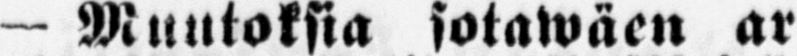— Muutoksia sotawäen ar-
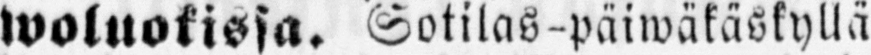woluokissa. Sotilas-päiwäkäskyllä
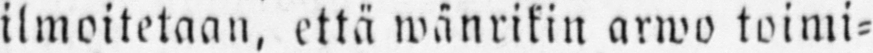ilmoitetaan, että wänrikin arwo toimi-
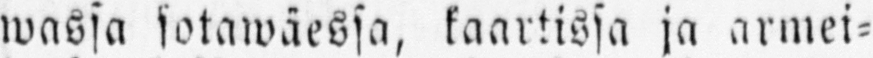wassa sotawäessa, kaartissa ja armei-
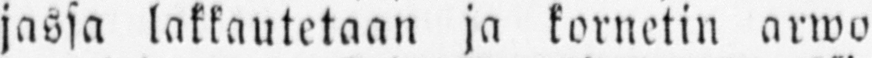jassa lakkautetaan ja kornetin arwo
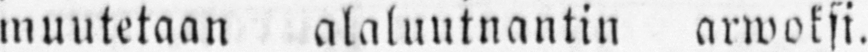muutetaan alaluutnantin arwoksi.
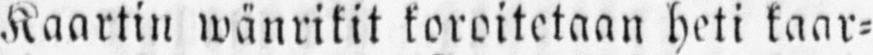Kaartin wänrikit koroitetaan heti kaar-
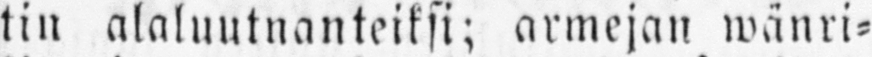tin alaluutnanteiksi; armejan wänri-
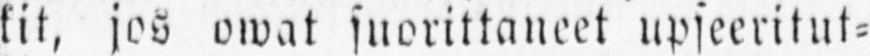kit, jos owat suorittaneet upseeritut-
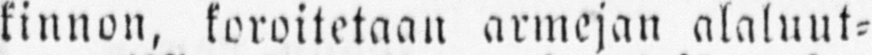kinnon, koroitetaan armejan alaluut-
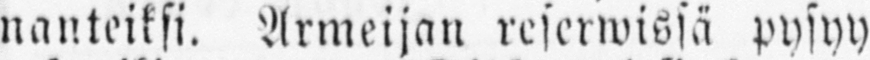nanteiksi. Armeijan reserwissä pysyy
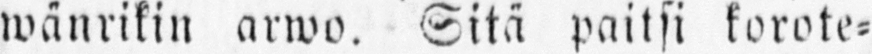wänrikin arwo. Sitä paitsi korote-
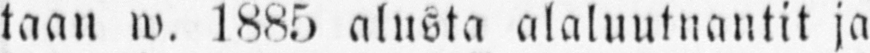taan w. 1885 alusta alaluutnantit ja
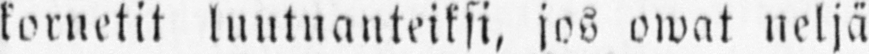kornetit luutnanteiksi, jos owat neljä
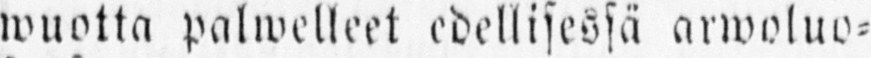wuotta palwelleet edellisessä arwoluo-
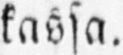kassa.
